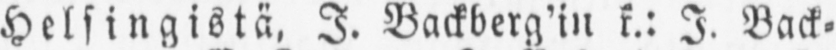Helsingistä. I. Backberg’in r.: I. Back-
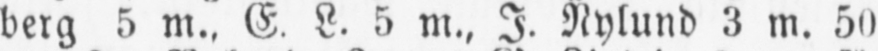berg 5 m., E. L. 5 m., I. Nylund 3 m. 50
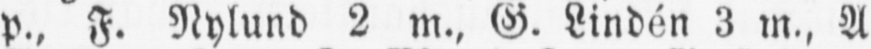p., F. Nylund 2 m., G. Lindén 3 m., A
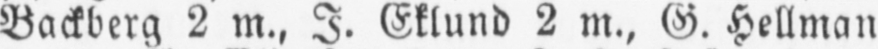Backberg 2 m., I. Eklund 2 m., G. Hellman
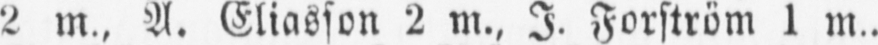2 m., A. Eliasson 2 m., I. Forström 1 m.,
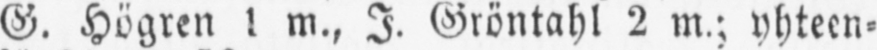G. Högren 1 m., I. Gröntahl 2 m.; yhteen-
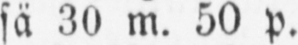sä 30 m. 50 p.
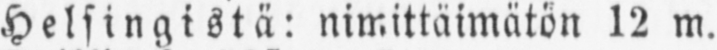Helsingistä: nimittäimätön 12 m.
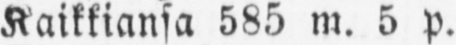Kaikkiansa 585 m. 5 p.
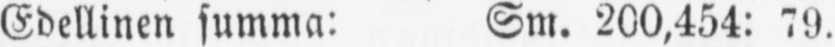Edellinen summa: Sm. 200,454: 79.
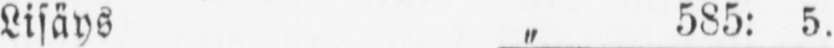Lisäys „ 585: 5.
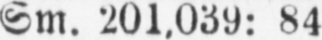Sm. 201,039: 84
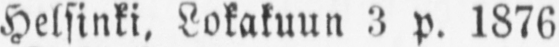Helsinki. Lokakuun 3 p. 1876.
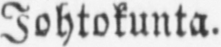Johtokunta.
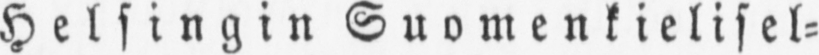Helsingin Suomenkielisel-
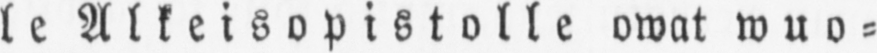le Alkeisopistolle owat wuo-
